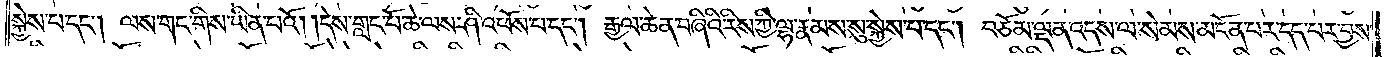སྐྱེས་པ་དང༌། ལས་གང་གིས་ཡིན་པའོ། །དེས་གླང་པོ་ཆེ་ལས་ཤི་འཕོས་པ་དང༌། རྒྱལ་ཆེན་བཞིའི་རིས་ཀྱི་ལྷ་རྣམས་སུ་སྐྱེས་པ་དང༌། བཅོམ་ལྡན་འདས་ལ་སེམས་མངོན་པར་དད་པར་བྱས་
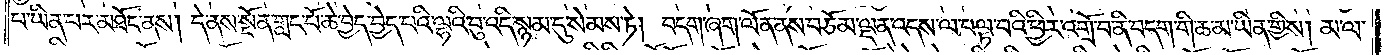པ་ཡིན་པར་མཐོང་ནས། དེ་ནས་སྔོན་གླང་པོ་ཆེ་བྱེད་བྱེད་པའི་ལྷའི་བུ་འདི་སྙམ་དུ་སེམས་ཏེ། བདག་ཞག་ལོན་ནས་བཅོམ་ལྡན་འདས་ལ་བལྟ་བའི་ཕྱིར་འགྲོ་བ་ནི་བདག་གི་ཆ་མ་ཡིན་གྱིས། མ་ལ་
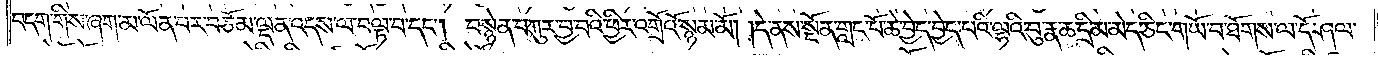བདག་གིས་ཞག་མ་ལོན་པར་བཅོམ་ལྡན་འདས་ལ་བལྟ་བ་དང༌། བསྙེན་བཀུར་བྱ་བའི་ཕྱིར་འགྲོའོ་སྙམ་མོ། །དེ་ནས་སྔོན་གླང་པོ་ཆེ་བྱེད་བྱེད་པའི་ལྷའི་བུ་རྣ་ཆ་དྲི་མ་མེད་ཅིང་གཡོ་བ་ཐོགས་ལ་དོ་ཤལ་
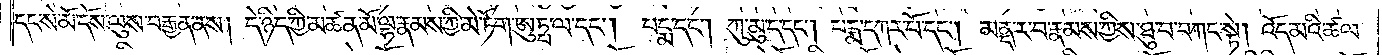དང་སེ་མོ་དོས་ལུས་བརྒྱན་ནས། དེ་ཉིད་ཀྱི་མཚན་མོ་ལྷ་རྣམས་ཀྱི་མེ་ཏོག་ཨུཏྤ་ལ་དང༌། པདྨ་དང༌། ཀུ་མུ་ད་དང༌། པདྨ་དཀར་པོ་དང༌། མནད་ར་བ་རྣམས་ཀྱིས་ཐུ་བ་བཀང་སྟེ། འོད་མའི་ཚལ་
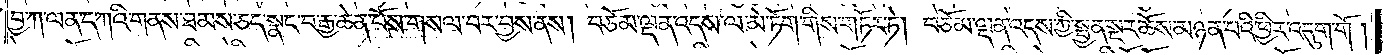བྱ་ཀ་ལན་དཀའི་གནས་ཐམས་ཅད་སྣང་བ་རྒྱ་ཆེན་པོས་གསལ་བར་བྱས་ནས། བཅོམ་ལྡན་འདས་ལ་མེ་ཏོག་གིས་གཏོར་ཏེ། བཅོམ་ལྡན་འདས་ཀྱི་སྤྱན་སྔར་ཆོས་མཉན་པའི་ཕྱིར་འདུག་གོ་
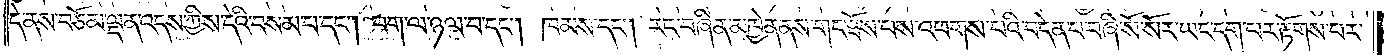དེ་ནས་བཅོམ་ལྡན་འདས་ཀྱིས་དེའི་བསམ་པ་དང༌། བག་ལ་ཉམས་པ་དང༌། ཁམས་དང༌། རང་བཞིན་མཁྱེན་ནས་གང་ཐོས་པས་འཕགས་པའི་བདེན་པ་བཞི་སོ་སོར་ཡང་དག་པར་རྟོགས་པར་
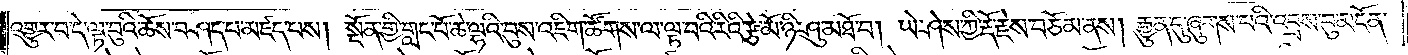འགྱུར་བ་དེ་ལྟ་བུའི་ཆོས་བཤད་པ་མཛད་པས། སྔོན་གྱི་གླང་པོ་ཆེ་ལྷའི་བུས་འཇིག་ཚོགས་ལ་ལྟ་བའི་རིའི་རྩེ་མོ་ཉི་ཤུ་མཐོ་བ། ཡེ་ཤེས་ཀྱི་རྡོ་རྗེས་བཅོམ་ནས། རྒྱུན་དུ་ཞུགས་པའི་འབྲས་བུ་མངོན་
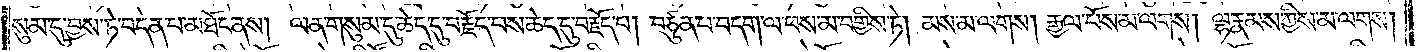སུམ་དུ་བྱས་ཏེ་བདེན་པ་མཐོང་ནས། ལན་གསུམ་དུ་ཆེད་དུ་བརྗོད་པས་ཆེད་དུ་བརྗོད་པ། བཙུན་པ་བདག་ལ་ཕས་མ་བགྱིས་ཏེ། མས་མ་ལགས། རྒྱལ་པོས་མ་ལགས། ལྷ་རྣམས་ཀྱིས་མ་ལགས་
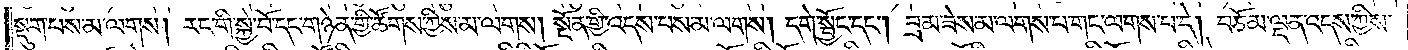སྡུག་པས་མ་ལགས། རང་གི་སྐྱེ་བོ་དང་གཉེན་གྱི་ཚོགས་ཀྱིས་མ་ལགས། སྔོན་གྱི་འདས་པས་མ་ལགས། དགེ་སྦྱོང་དང༌། བྲམ་ཟེས་མ་ལགས་པ་གང་ལགས་པ་དེ། བཅོམ་ལྡན་འདས་ཀྱིས།
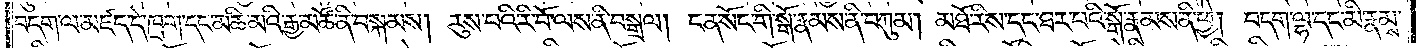བདག་ལ་མཛད་དེ་ཁྲག་དང་མཆི་མའི་རྒྱ་མཚོ་ནི་བསྐམས། རུས་པའི་རི་བོ་ལས་ནི་བསྒྲལ། ངན་སོང་གི་སྒོ་རྣམས་ནི་བཀུ་མ། མཐོ་རིས་དང་ཐར་པའི་སྒོ་རྣམས་ནི་ཕྱེ། བདག་ལྷ་དང་མི་རྣམས་
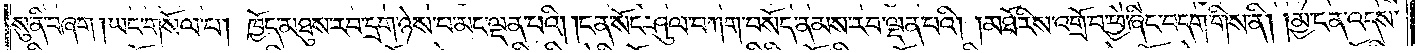སུ་ནི་བཞག །ཡང་གསོལ་པ། ཁྱོད་མཐུས་རབ་དྲག་ཉེས་པ་མང་ལྡན་པའི། །ངན་སོང་ཤུལ་བཀག་བསོད་ནམས་རབ་ལྡན་པའི། །མཐོ་རིས་འགྲོ་བ་ཕྱེ་ཞིང་བདག་གིས་ནི། །མྱ་ངན་འདས་
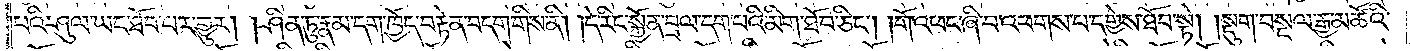པའི་ཤུལ་ཡང་ཐོབ་པར་གྱུར། །ཤིན་ཏུ་རྣམ་དག་ཁྱོད་བརྟེན་བདག་གིས་ནི། །དེ་རིང་སྐྱོན་བྲལ་དག་པའི་མིག་ཐོབ་ཅིང༌། །གོ་འཕང་ཞི་བ་འཕགས་པ་དགྱེས་ཐོབ་སྟེ། །སྡུག་བསྔལ་རྒྱ་མཚོའི་
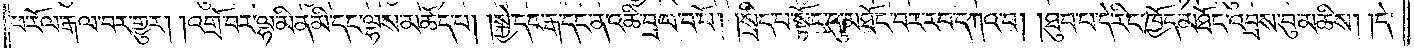ཕ་རོལ་རྒལ་བར་གྱུར། །འགྲོ་བར་ལྷ་མིན་མི་དང་ལྷས་མཆོད་པ། །སྐྱེ་དང་རྒ་དང་ན་འཆི་བྲལ་བ་པོ། །སྲིད་པ་སྟོང་དུ་མཐོང་བར་རབ་དཀའ་བ། །ཐུབ་པ་དེ་རིང་ཁྱོད་མཐོང་འབྲས་བུ་མཆིས། །དེ་
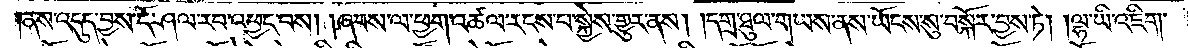ནས་འདུད་བྱས་དོ་ཤལ་རབ་འཕྱང་བས། །ཞབས་ལ་ཕྱག་འཚལ་རངས་པ་སྐྱེས་གྱུར་ནས། །དགྲ་ཐུལ་གཡས་ནས་ཡོངས་སུ་བསྐོར་བྱས་ཏེ། །ལྷ་ཡི་འཇིག་
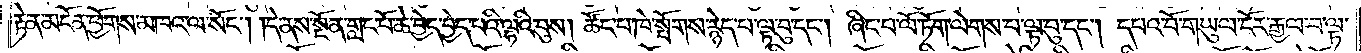རྟེན་མངོན་ཕྱོགས་མཁའ་ལ་སོང༌། །དེ་ནས་སྔོན་གླང་པོ་ཆེ་བྱེད་བྱེད་པའི་ལྷའི་བུས། ཚོང་པ་ཁེ་སྤོགས་རྙེད་པ་ལྟ་བུ་དང༌། ཞིང་པ་ལོ་ཏོག་ལེགས་པ་ལྟ་བུ་དང༌། དཔའ་བོ་གཡུལ་ངོར་རྒྱལ་བ་ལྟ་
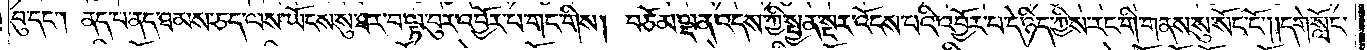བུ་དང༌། ནད་པ་ནད་ཐམས་ཅད་ལས་ཡོངས་སུ་ཐར་བ་ལྟ་བུར་འབྱོར་པ་གང་གིས། བཅོམ་ལྡན་འདས་ཀྱི་སྤྱན་སྔར་འོངས་པའི་འབྱོར་པ་དེ་ཉིད་ཀྱིས་རང་གི་གནས་སུ་སོང་ངོ༌། །དགེ་སློང་
